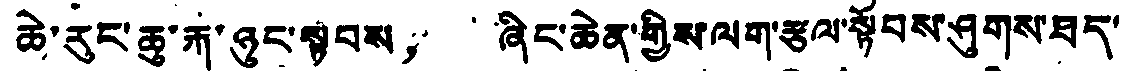ཆེ་རུང་ཆུ་རྐ་ཉུང་སྟབས， ཞིང་ཆེན་གྱིས་ལག་རྩལ་སྟོབས་ཤུགས་ཐད་
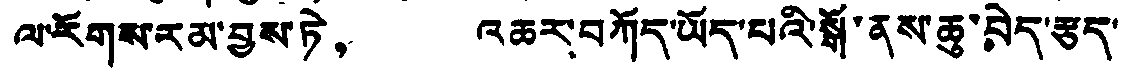ལ་རོགས་རམ་བྱས་ཏེ， འཆར་བཀོད་ཡོད་པའི་སྒོ་ནས་ཆུ་བེད་རྩད་
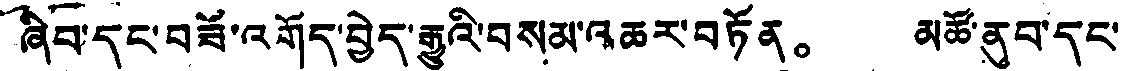ཞིབ་དང་བཟོ་འགོད་བྱེད་རྒྱུའི་བསམ་འཆར་བཏོན。 མཚོ་ནུབ་དང་
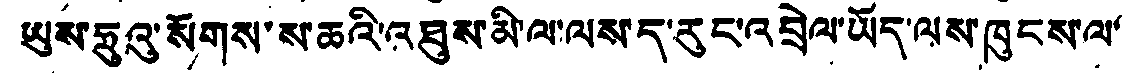ཡུས་ཧྲུའུ་སོགས་ས་ཆའི་འཐུས་མི་ལ་ལས་ད་རུང་འབྲེལ་ཡོད་ལས་ཁུངས་ལ་
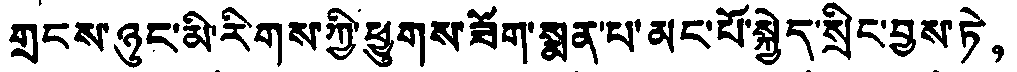གྲངས་ཉུང་མི་རིགས་ཀྱི་ཕྱུགས་ཟོག་སྨན་པ་མང་པོ་སྐྱེད་སྲིང་བྱས་ཏེ，
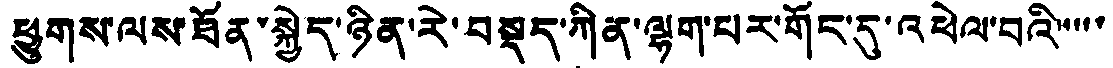ཕྱུགས་ལས་ཐོན་སྐྱེད་ཉིན་རེ་བསྡད་ཀིན་ལྷག་པར་གོང་དུ་འཕེལ་བའི་་་་་
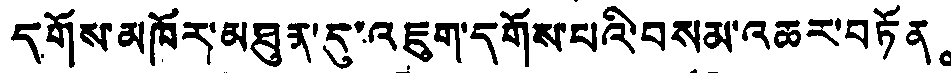དགོས་མཁོར་མཐུན་དུ་འཇུག་དགོས་པའི་བསམ་འཆར་བཏོན。
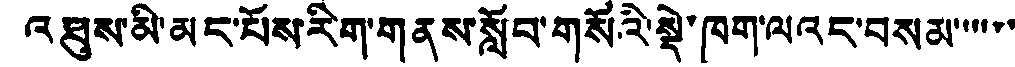འཐུས་མི་མང་པོས་རིག་གནས་སློབ་གསོའི་སྡེ་ཁག་ལའང་བསམ་་་་་་
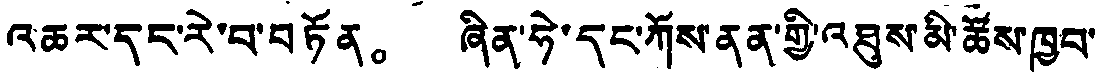འཆར་དང་རེ་བ་བཏོན。 ཞིན་ཧེ་དང་ཀོས་ནན་གྱི་འཐུས་མི་ཚོས་ཁྱབ་
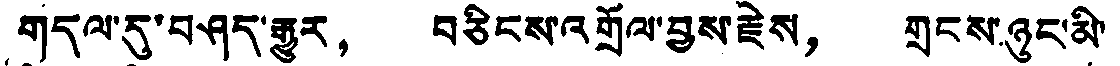གདལ་དུ་བཤད་རྒྱུར， བཅིངས་འགྲོལ་བྱས་རྗེས， གྲངས་ཉུང་མི་
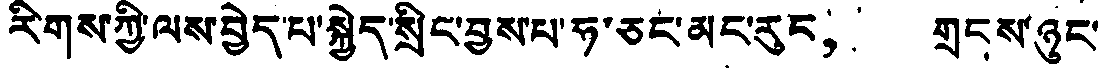རིགས་ཀྱི་ལས་བྱེད་པ་སྐྱེད་སྲིང་བྱས་པ་ཧ་ཅང་མང་རུང， གྲངས་ཉུང་
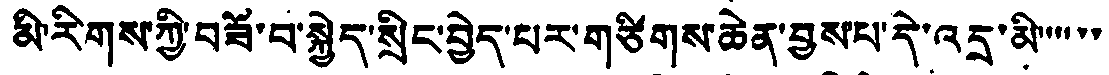མི་རིགས་ཀྱི་བཟོ་བ་སྐྱེད་སྲིང་བྱེད་པར་གཙིགས་ཆེན་བྱས་པ་དེ་འདྲ་མི་་་་་
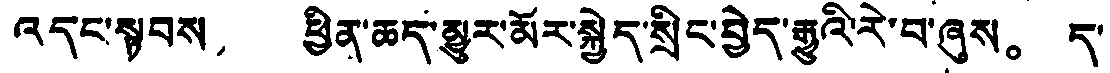འདང་སྟབས， ཕྱིན་ཆད་མྱུར་མོར་སྐྱེད་སྲིང་བྱེད་རྒྱུའི་རེ་བ་ཞུས。 ད་
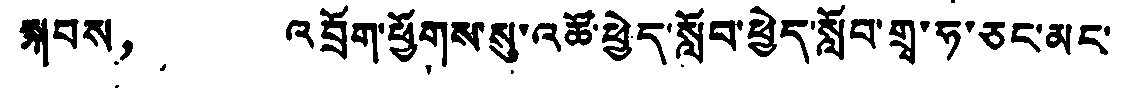སྐབས， འབྲོག་ཕྱོགས་སུ་འཚོ་ཕྱེད་སློབ་ཕྱེད་སློབ་གྲྭ་ཧ་ཅང་མང་
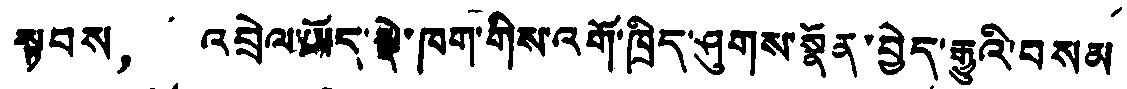སྟབས， འབྲེལ་ཡོད་སྡེ་ཁག་གིས་འགོ་ཁྲིད་ཤུགས་སྣོན་བྱེད་རྒྱུའི་བསམ
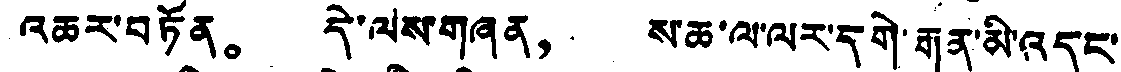འཆར་བཏོན。 དེ་ལས་གཞན， ས་ཆ་ལ་ལར་དགེ་རྒན་མི་འདང་
